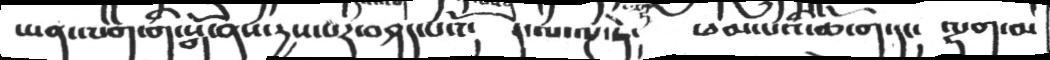ཡན་ལག་གི་སྒོ་ནས་རྱས་པར་བཤད་པའོ།    དེ་ལ་ལྔ་ཏེ།    ཕམ་པའི་ཆོ་ག་དང།   ལྷག་མ་
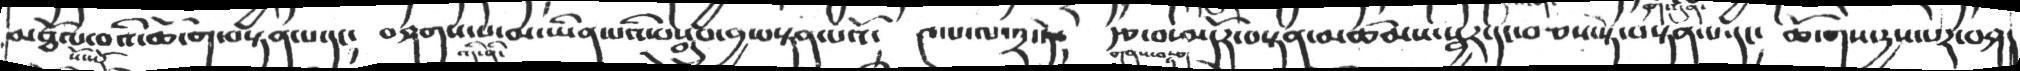མཐོལ་བའི་ཆོ་ག་བསྟན་པ་དང༴   བཤགས་པ་མ་ཡིན་པའི་བསྒྲུབ་བྱ་བསྟན་པའོ༴   ༤་པ་ལ་༢་ཏེ༴   རྩ་བ་མདོར་བསྟན་མཚམས་སྦྱར་དང་བཅས་སྟེ་བསྟན་པ་དང༴  ཆོ་གས་དྱས་པར་བཤད
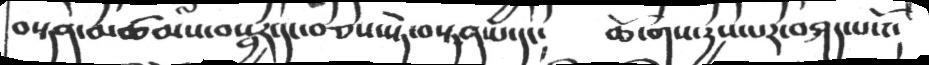བསྟན་མཚམས་བསྦྱར་དང་བཅས་སྟེ་བསྟན་པ་དང།   ཆོ་གས་དྱས་པར་བཤད་པའོ།
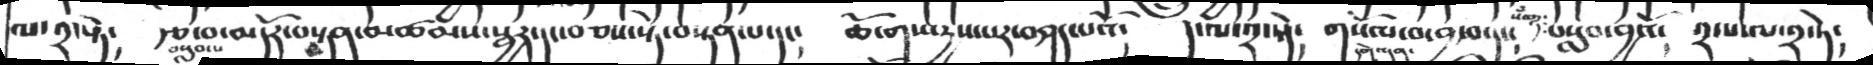ལ་༢་སྟེ༴  རྩ་བ་མདོར་བསྟན་མཚམས་སྦྱར་དང་བཅས་སྟེ་བསྟན་པ་དང༴   ཆོ་ག་སདྱས་པར་བཤད་པའོ༴   དེ་ལ་༢་སྟེ༴  གསོལ་བ་བྱ་བ་དང༴   བསླབ་བྱའོ༴  ༢་པ་ལ་༢་ཏེ༴
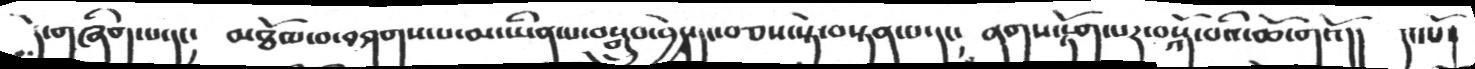དེ་གཞིག་པ་དང།  མཐོལ་བ་བཤགས་པ་མ་ཡིན་པ་བསྒྲུབ་བྱེད་པ་དང་བཅས་སྟེ་བསྟན་དང།  ནགས་རྟོག་པར་བསྐོ་བའི་ཆོ་གའོ།།  དང་པོ་
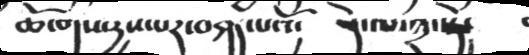ཆོ་གས་རྱས་པར་བཤད་པའོ། དེ་ལ་༣་སྟེ།
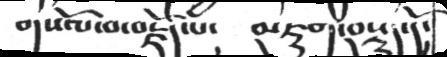གསོལ་བ་བརྗོད་པ། མཇུག་བསྡུད་དོ།
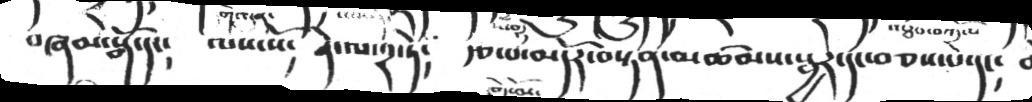བཞམ་སྒོ་དང༴   ལས་སོ༴  དེ་ལ་༢་ཏེ༴  རྩ་བ་མདོར་བསྟན་མཚམས་སྦྱར་དང་བཅས་པ་དང༴
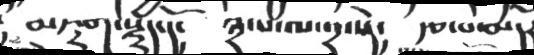མཇུག་སྡུད་དོ།     ༣་པ་ལ་༢་སྟེ།    རྩ་བ་མདོར་
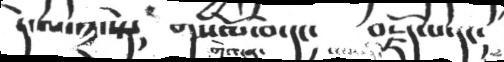དེ་ལ་༣་སྟེ།     གསོལ་བ་དང།   བརྗོད་པ་དང།
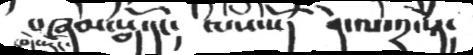བཞམ་སྒོ་དང༴  ལས་སོ།   དེ་ལ་༢་སྟེ༴
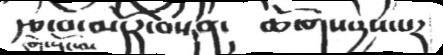རྩ་བ་མདོར་བསྟན༴  ཆོ་གས་རྱས་པར
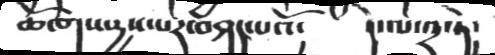ཆོ་གས་རྱས་པར་བཤད་པའོ། དེ་ལ་༢་ཏེ།
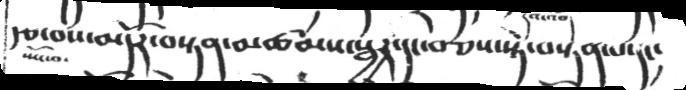རྩ་བས་མདོར་བསྟན་མཚམས་སྦྱར་དང་བཅས་སྟེ་བསྟན་པ་དང༴
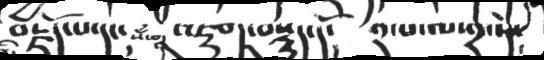བརྗོད་པ་དང༴  འཇུག་བསྡུད་དོ༴  ༢་པ་ལ་༢་ཏེ༴
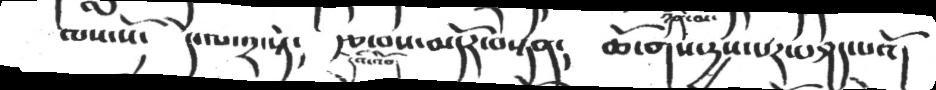ལས་སོ༴  དེ་ལ་༢་སྟེ༴  རྩ་བས་མདོར་བསྟན༴  ཆོ་གས་རྱས་པར་བཤད་པའོ།
